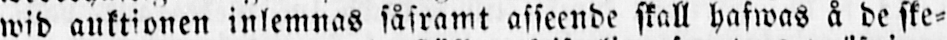wid auktionen inlemnas såframt afseende skall hafwas å de ske-
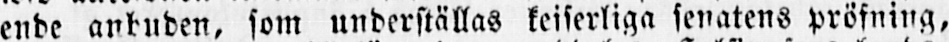ende anbuden, som underställas kejserliga senatens pröfning,
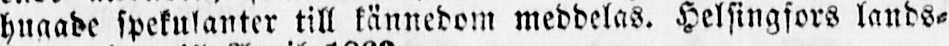hugade spekulanter till kännedom meddelas. Helsingfors lands-
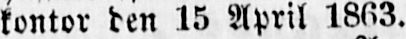kontor den 15 April 1863.
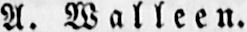A. Walleen.
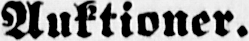Auktioner.
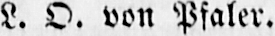L. O. von Pfaler.
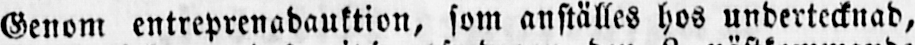Genom entreprenadauktion, som anställes hos undertecknad,
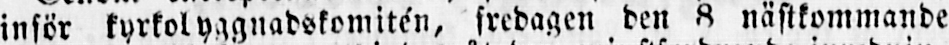inför kyrkobyggnadskomitén, fredagen den 8 nästkommande
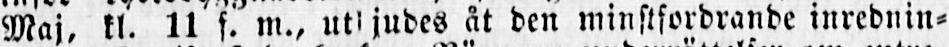Maj, kl. 11 m., utbjudes åt den minstfordrande inrednin-
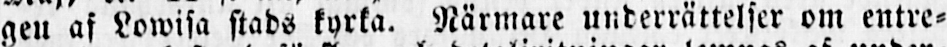gen af Lowisa stads kyrka. Närmare underrättelser om entre-
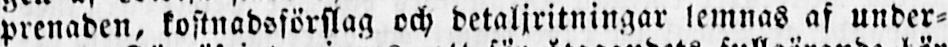prenaden, kostnadsförslag och detaljritningar lemnas af under-
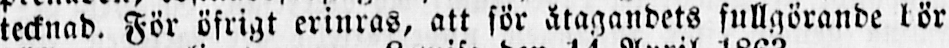tecknad. För öfrigt erinras, att för åtagandets fullgörande bör
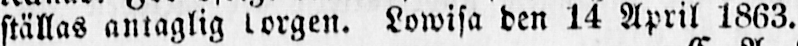ställas antaglig borgen. Lowisa den 14 April 1863.
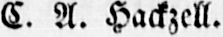C. A. Hackzell.
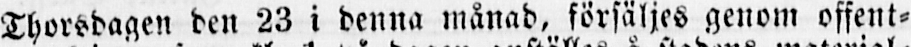Thorsdagen den 23 i denna månad, försäljes genom offent-
